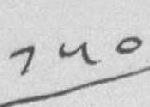༡༥༠
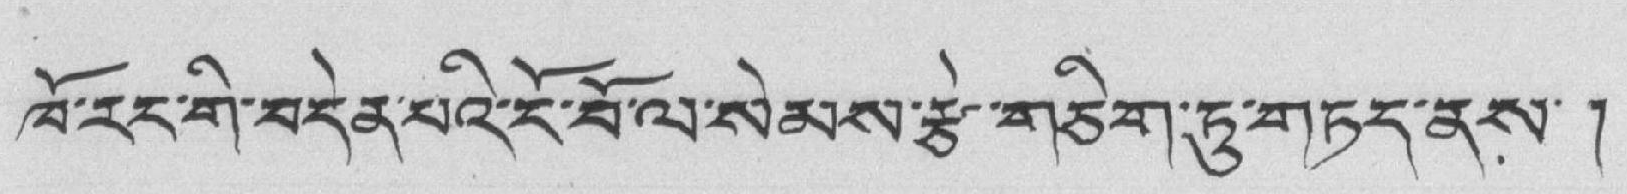ཁོ་རང་གི་བདེན་པའི་ངོ་བོ་ལ་སེམས་རྩེ་གཅིག་ཏུ་གཏད་ནས་ །
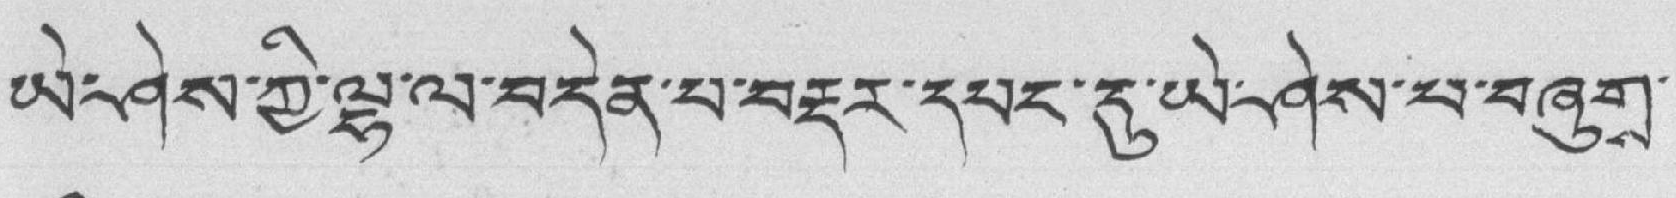ཡེ་ཤེས་ཀྱི་ལྷ་ལ་བདེན་པ་བརྡར་དཔང་དུ་ཡེ་ཤེས་པ་བཞུགས་
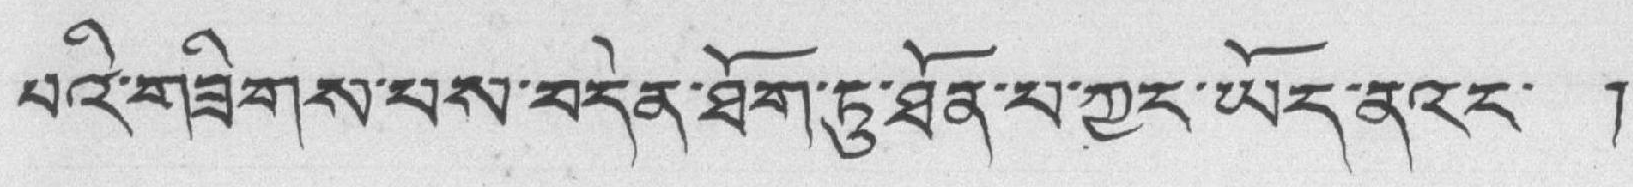པའི་གཟིགས་པས་བདེན་ཐོག་ཏུ་ཐོན་པ་ཀྱང་ཡོད་ནའང་ །
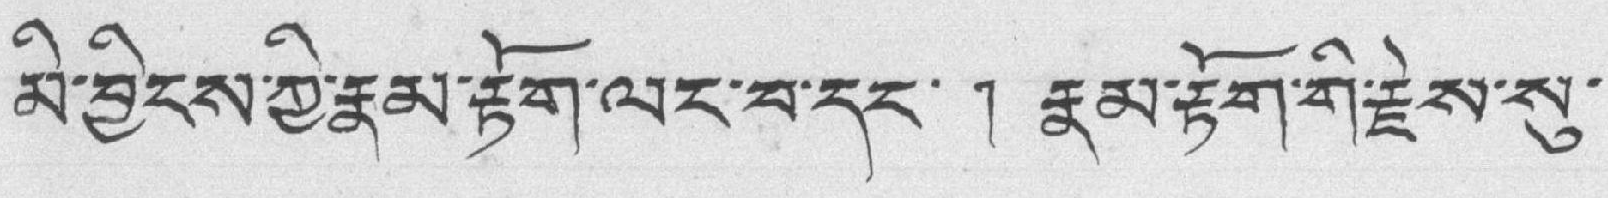མི་བྱིངས་ཀྱི་རྣམ་རྟོག་ལང་བ་དང་ ། རྣམ་རྟོག་གི་རྗེས་སུ་
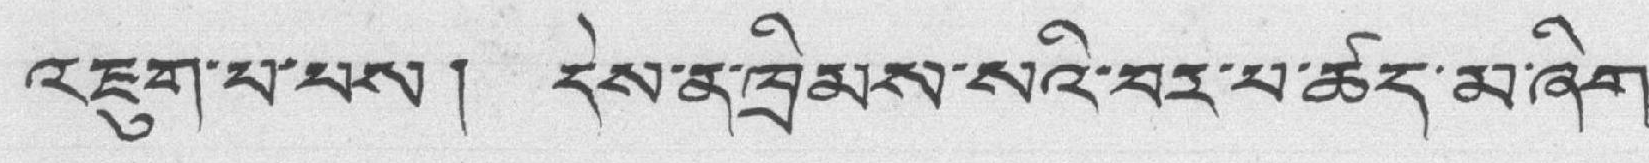འཇུག་པ་པས། དེས་ན་ཁྲིམས་སའི་བར་པ་ཚད་མ་ཞིག་
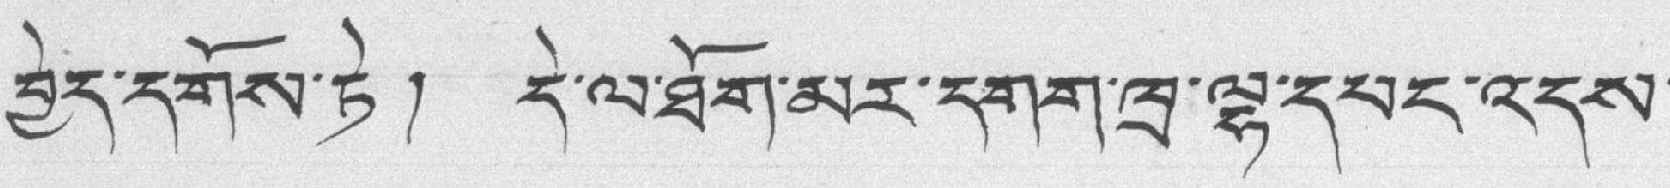བྱེད་དགོས་ཏེ ། དེ་ལ་ཐོག་མར་དགག་ཁྲ་ལྷ་དཔང་འདས་
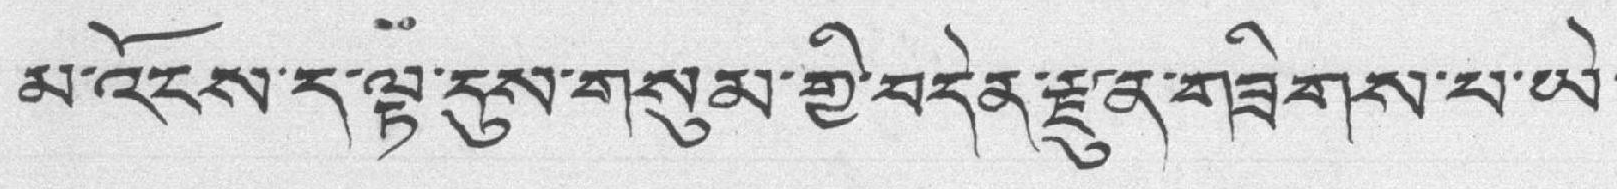མ་འོངས་ད་ལྟ་དུས་གསུམ་གྱི་བདེན་རྫུན་གཟིགས་པ་ཡེ་
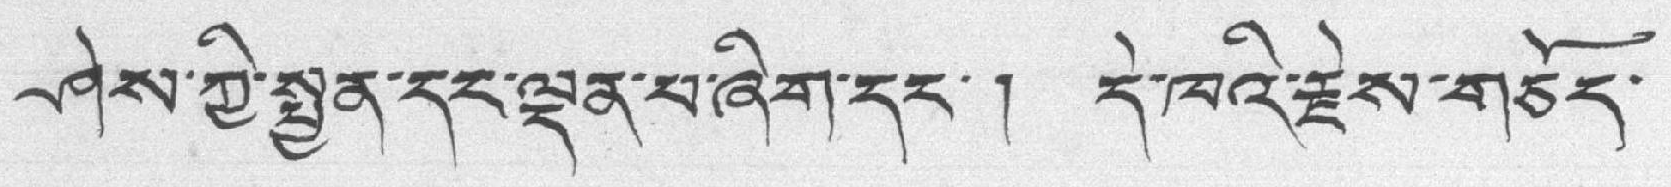ཤེས་ཀྱི་སྤྱན་དང་ལྡན་པ་ཞིག་དང་ ། དེ་ཁའི་རྗེས་གཅོད་
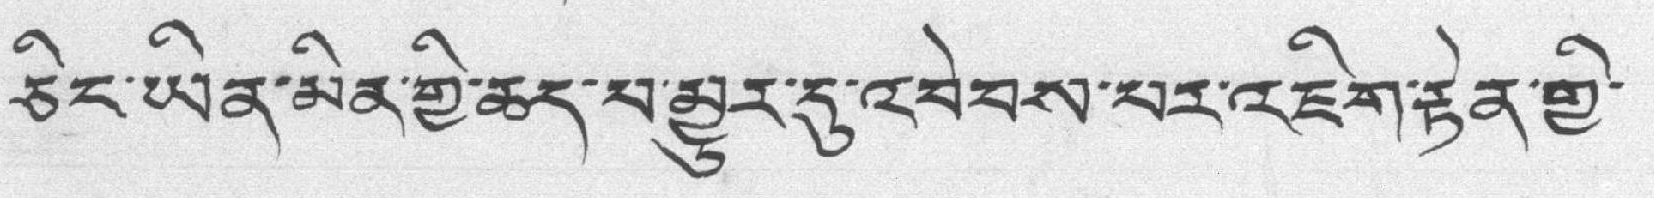ཅིང་ཡིན་མིན་གྱི་ཆད་པ་མྱུར་དུ་འབེབས་པར་འཇིག་རྟེན་གྱི་
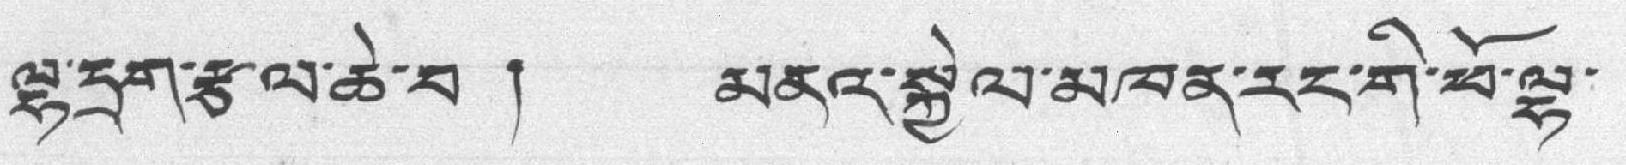ལྷ་དྲག་རྩལ་ཆེ་བ ། མནའ་སྐྱེལ་མཁན་རང་གི་ཕོ་ལྷ་
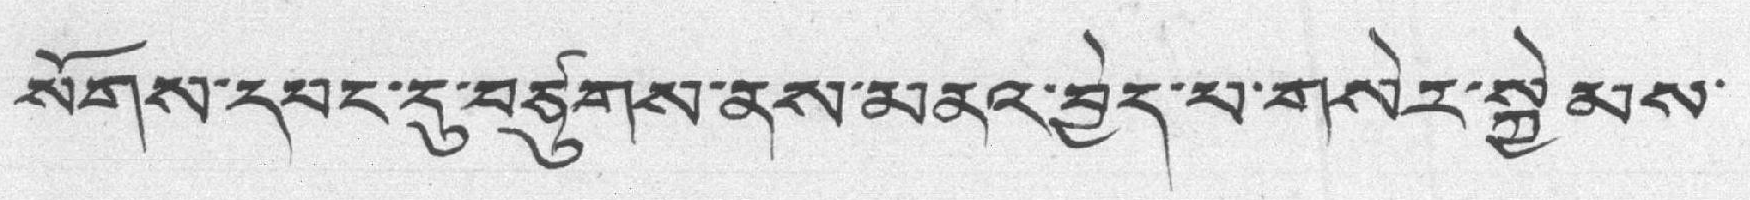སོགས་དཔང་དུ་བཙུགས་ནས་མནའ་བྱེད་པ་གསེར་སྐྱེམས་
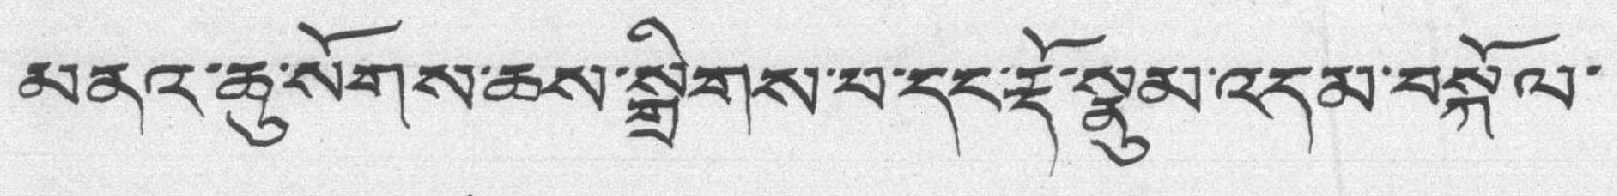མནའ་ཆུ་སོགས་ཆས་སྒྲིགས་པ་དང་རྡོ་སྣུམ་འདམ་བསྐོལ་
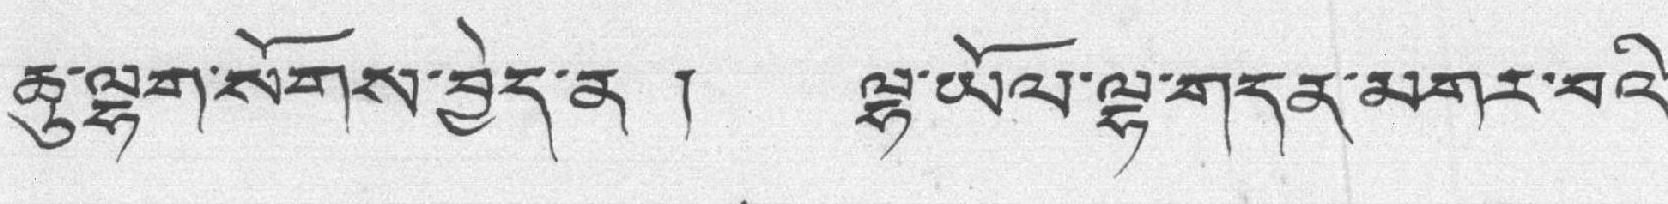ཆུ་ལྷག་སོགས་བྱེད་ན ། ལྷ་ཡོལ་ལྷ་གདན་མགར་བའི་
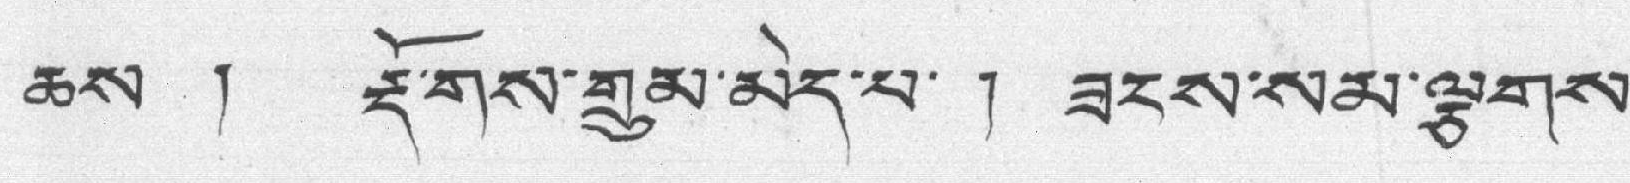ཆས ། རྡོགས་གྲུམ་མེད་པ་ ། ཟངས་སམ་ལྕགས་
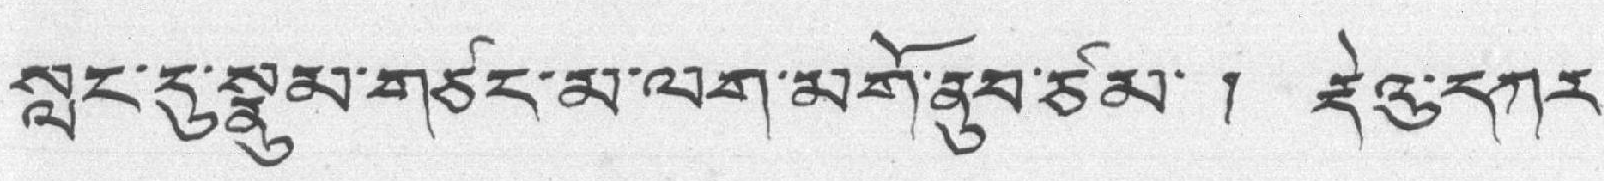སླང་དུ་སྣུམ་གཙང་མ་ལག་མགོ་ནུབ་ཙམ་ ། རྡེའུ་དཀར་
